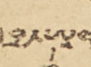དབྱ་ཨན་
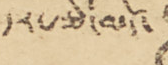དར་རྩེ་མདོ་
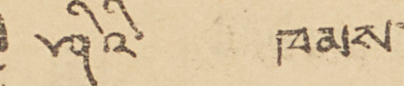ཤིའི་ ཁམས་
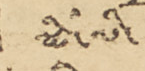སྨི་ལི་
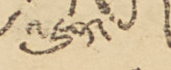འཇུན་
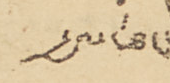རྒྱལ་ཐང་
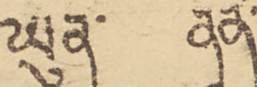ཡུན་ ནཱན་
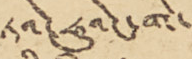ཏའེ་ཧུའེང་གི་
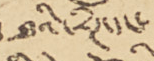ཐའི་རིཊ་དང་
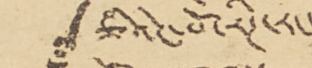ཅིའེང་པོ་རིཊ་རང་
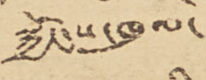སྐྱོང་ས་ཁུལ་
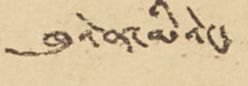ཁུའེན་མིའེང་
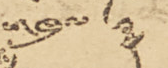ཁུལ་
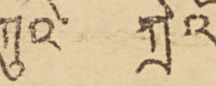ཀུའེ་ ཀྲེའོ་
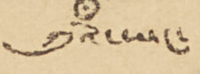ཀུའེ་ཡང་
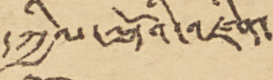དཀྱིལ་ལྷོའི་འཛིན་
